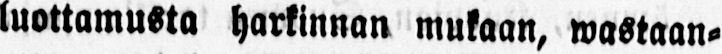luottamusta harkinnan mukaan, wastaan-
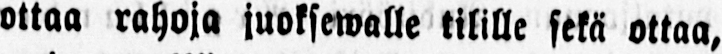ottaa rahoja juoksewalle tilille sekä ottaa,
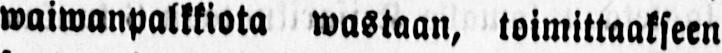waiwanpalkkiota wastaan, toimittaakseen
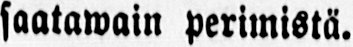saatawain perimistä.
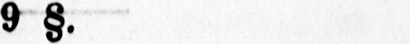9 §.
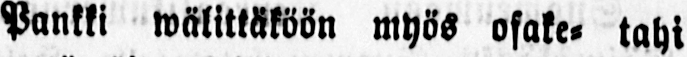pankki Wälittäköön myös osake- tahi
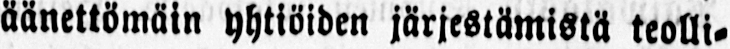äänettömäin yhtiöiden järjestämistä teolli-
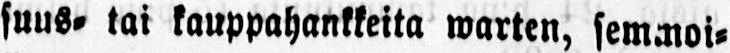suus-tai kauppahankkeita warten, semmoi-
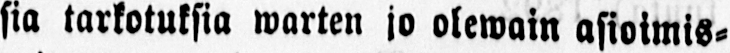sia tarkotuksia warten jo olewain asioimis-
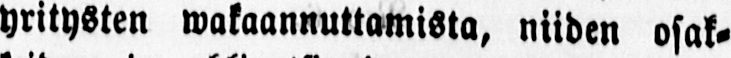yritysten wakaannuttamista, niiden osak-
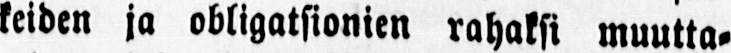keiden ja obligatsionien rahaksi muutta-
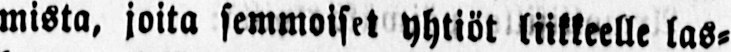mista, joita semmoiset yhtiöt liikkeelle las-
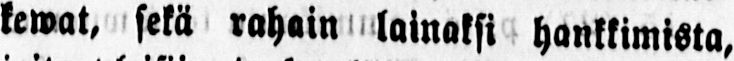kewat, sekä rahoin lainaksi hankkimista,
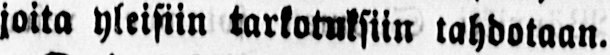joita yleisiin karkotuksiin tahdotaan.
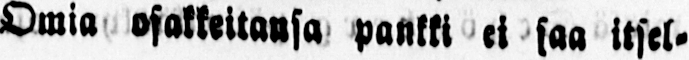Omia osakkeitansa pankki ei saa itsel-
